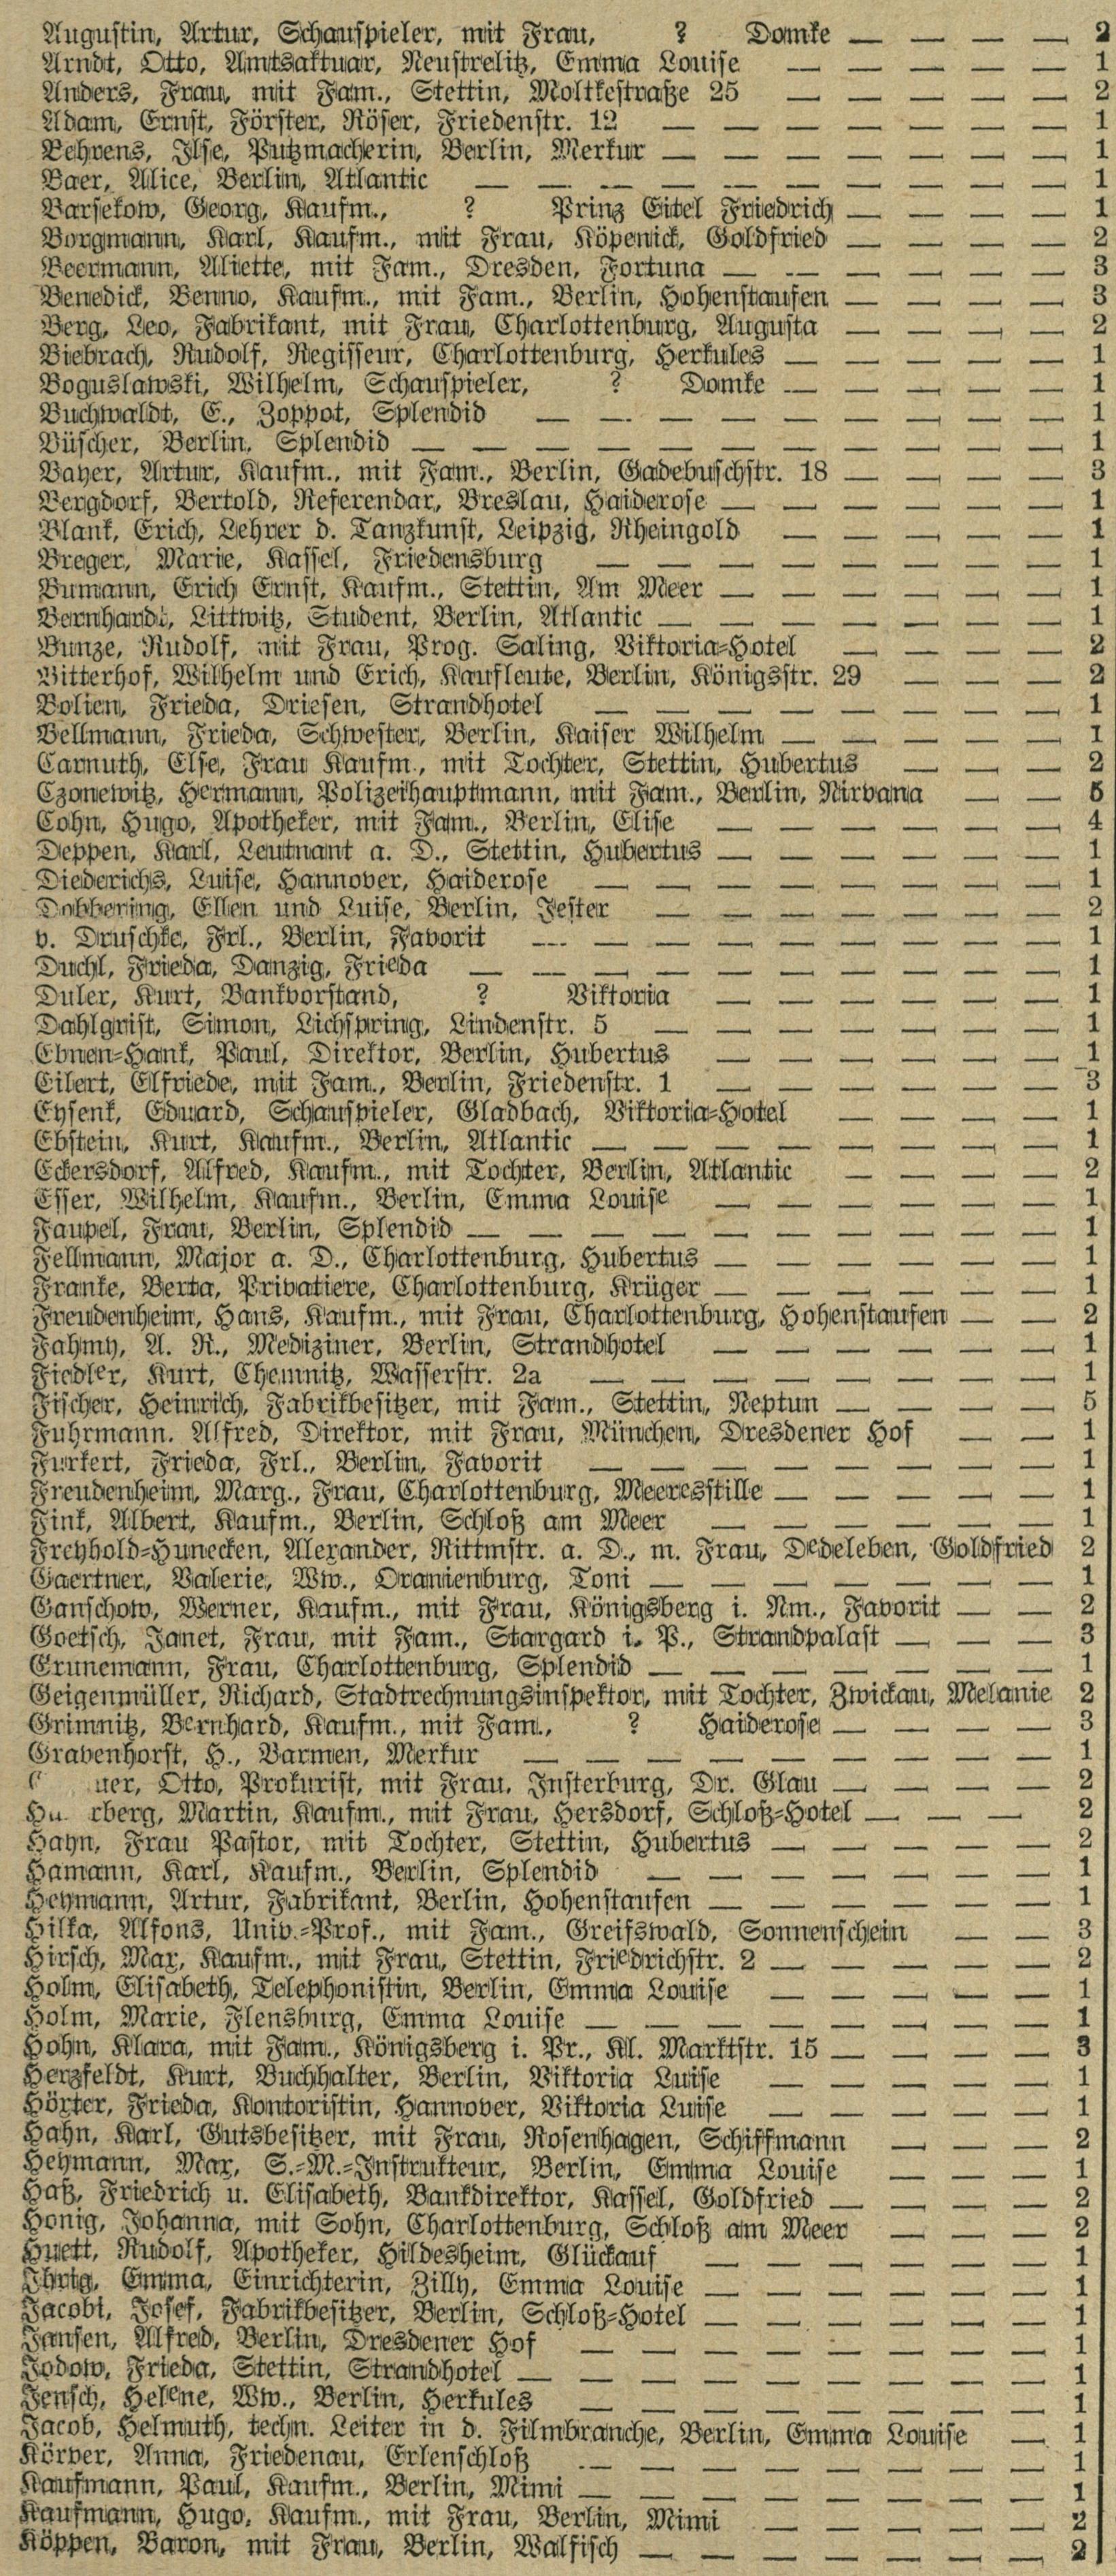Augustin, Artur, Schauspieler, mit Frau, ? Domke | 2
Arndt, Otto, Amtsaktuar, Neustrelitz, Emma Louise | 1
Anders, Frau, mit Fam., Stettin, Moltkestraße 25 | 2
Adam, Ernst, Förster, Röser, Friedenstr. 12 | 1
Behrens, Ilse, Putzmacherin, Berlin, Merkur | 1
Baer, Alice, Berlin, Atlantic | 1
Barsekow, Georg, Kaufm., ? Prinz Eitel Friedrich | 1
Borgmann, Karl, Kaufm., mit Frau, Köpenick, Goldfried | 2
Beermann, Aliette, mit Fam., Dresden, Fortuna | 3
Benedick, Benno, Kaufm., mit Fam., Berlin, Hohenstaufen | 3
Berg, Leo, Fabrikant, mit Frau, Charlottenburg, Augusta | 2
Biebrach, Rudolf, Regisseur, Charlottenburg, Herkules | 1
Boguslawski, Wilhelm, Schauspieler, ? Domke | 1
Buchwaldt, E., Zoppot, Splendid | 1
Büscher, Berlin, Splendid | 1
Bayer, Artur, Kaufm., mit Fam., Berlin, Gadebuschstr. 18 | 3
Bergdorf, Bertold, Referendar, Breslau, Haiderose | 1
Blank, Erich, Lehrer d. Tanzkunst, Leipzig, Rheingold | 1
Breger, Marie, Kassel, Friedensburg | 1
Bumann, Erich Ernst, Kaufm., Stettin, Am Meer | 1
Bernhardt, Littwitz, Student, Berlin, Atlantic | 1
Bunze, Rudolf, mit Frau, Prog. Saling, Viktoria=Hotel | 2
Bitterhof, Wilhelm und Erich, Kaufleute, Berlin, Königsstr. 29 | 2
Bolien, Frieda, Driesen, Strandhotel | 1
Bellmann, Frieda, Schwester, Berlin, Kaiser Wilhelm | 1
Carnuth, Else, Frau Kaufm., mit Tochter, Stettin, Hubertus | 2
Czonewitz, Hermann, Polizeihauptmann, mit Fam., Berlin, Nirvana | 5
Cohn, Hugo, Apotheker, mit Fam., Berlin, Elise | 4
Deppen, Karl, Leutnant a. D., Stettin, Hubertus | 1
Diederichs, Luise, Hannover, Haiderose | 1
Dobbering, Ellen und Luise, Berlin, Jester | 2
v. Druschke, Frl., Berlin, Favorit | 1
Duchl, Frieda, Danzig, Frieda | 1
Duler, Kurt, Bankvorstand, ? Viktoria | 1
Dahlgrist, Simon, Lichspring, Lindenstr. 5 | 1
Ebnen=Hank, Paul, Direktor, Berlin, Hubertus | 1
Eilert, Elfriede, mit Fam., Berlin, Friedenstr. 1 | 3
Eysenk, Eduard, Schauspieler, Gladbach, Viktoria=Hotel | 1
Ebstein, Kurt, Kaufm., Berlin, Atlantic | 1
Eckersdorf, Alfred, Kaufm., mit Tochter, Berlin, Atlantic | 2
Esser, Wilhelm, Kaufm., Berlin, Emma Louise | 1
Faupel, Frau, Berlin, Splendid | 1
Fellmann, Major a. D., Charlottenburg, Hubertus | 1
Franke, Berta, Privatiere, Charlottenburg, Krüger | 1
Freudenheim, Hans, Kaufm., mit Frau, Charlottenburg, Hohenstaufen | 2
Fahmy, A. R., Mediziner, Berlin, Strandhotel | 1
Fiedler, Kurt, Chemnitz, Wasserstr. 2a | 1
Fischer, Heinrich, Fabrikbesitzer, mit Fam., Stettin, Neptun | 5
Fuhrmann, Alfred, Direktor, mit Frau, München, Dresdener Hof | 1
Furkert, Frieda, Frl., Berlin, Favorit | 1
Freudenheim, Marg., Frau, Charlottenburg, Meeresstille | 1
Fink, Albert, Kaufm., Berlin, Schloß am Meer | 1
Freyhold=Hunecken, Alexander, Rittmstr. a. D., m. Frau, Dedeleben, Goldfried | 2
Gaertner, Valerie, Ww., Oranienburg, Toni | 1
Ganschow, Werner, Kaufm., mit Frau, Königsberg i. Nm., Favorit | 2
Goetsch, Janet, Frau, mit Fam., Stargard i. P., Strandpalast | 3
Grunemann, Frau, Charlottenburg, Splendid | 1
Geigenmüller, Richard, Stadtrechnungsinspektor, mit Tochter, Zwickau, Melanie | 2
Grimnitz, Bernhard, Kaufm., mit Fam., ? Haiderose | 3
Gravenhorst, H., Barmen, Merkur | 1
G uer, Otto, Prokurist, mit Frau, Insterburg, Dr. Glau | 2
Ha rberg, Martin, Kaufm., mit Frau, Hersdorf, Schloß=Hotel | 2
Hahn, Frau Pastor, mit Tochter, Stettin, Hubertus | 2
Hamann, Karl, Kaufm., Berlin, Splendid | 1
Heymann, Artur, Fabrikant, Berlin, Hohenstaufen | 1
Hilka, Alfons, Univ.=Prof., mit Fam., Greifswald, Sonnenschein | 3
Hirsch, Max, Kaufm., mit Frau, Stettin, Friedrichstr. 2 | 2
Holm, Elisabeth, Telephonistin, Berlin, Emma Louise | 1
Holm, Marie, Flensburg, Emma Louise | 1
Hohn, Klara, mit Fam., Königsberg i. Pr., Kl. Marktstr. 15 | 3
Herzfeldt, Kurt, Buchhalter, Berlin, Viktoria Luise | 1
Höxter, Frieda, Kontoristin, Hannover, Viktoria Luise | 1
Hahn, Karl, Gutsbesitzer, mit Frau, Rosenhagen, Schiffmann | 2
Heymann, Max, S.=M.=Instrukteur, Berlin, Emma Louise | 1
Haß, Friedrich u. Elisabeth, Bankdirektor, Kassel, Goldfried | 2
Honig, Johanna, mit Sohn, Charlottenburg, Schloß am Meer | 2
Huett, Rudolf, Apotheker, Hildesheim, Glückauf | 1
Ihrtg, Emma, Einrichterin, Zilly, Emma Louise | 1
Jacobi, Josef, Fabrikbesitzer, Berlin, Schloß=Hotel | 1
Jansen, Alfred, Berlin, Dresdener Hof | 1
Jodow, Frieda, Stettin, Strandhotel | 1
Jensch, Helene, Ww., Berlin, Herkules | 1
Jacob, Helmuth, techn. Leiter in d. Filmbranche, Berlin, Emma Louise | 1
Körver, Anna, Friedenau, Erlenschloß | 1
Kaufmann, Paul, Kaufm., Berlin, Mimi | 1
Kaufmann, Hugo, Kaufm., mit Frau, Berlin, Mimi | 2
Köppen, Baron, mit Frau, Berlin, Walfisch | 2
